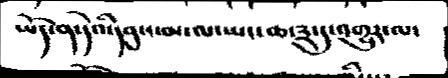ཡོད་ན་དེའི་དབུས་མ་ལ་ཡང་ཆ་༣་དུ་འགྱུར་ལ་
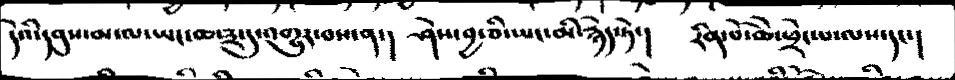དེའི་དབུས་མ་ལ་ཡང་ཆ་༣་དུ་འགྱུར་བས་ན་།  ཤེས་བྱ་ཅི་ཡང་མི་རྙེད་ཏེ་།   རིན་པོ་ཆེ་ཕྲེང་པ་ལས་དང་།
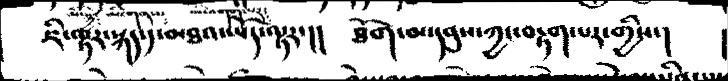ཇི་ལྟར་སྐད་༡་མཐའ་ཡོད་ལྟར་།།  ཐོག་མ་དབུས་ཀྱང་བརྟག་པར་གྱིས་།       །
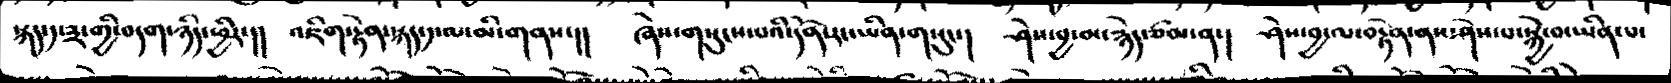སྐད་༡་༣་གྱི་བདག་ཉིད་ཕྱིར་།།  འཇིག་རྟེན་སྐད་༡་ལ་མི་གནས་།།  ཞེས་གསུངས་པའི་དོན་རང་ཡིན་གསུང་།    ཤེས་བྱ་མ་རྙེད་ཙམ་།  ཤེས་བྱ་ལ་བརྟེན་ནས་ཤེས་པ་སྐྱེ་བ་ཡིན་
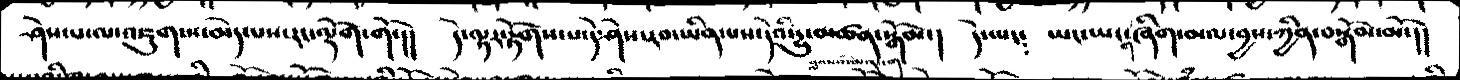ཤེ་པ་ལ་འཇུག་ས་མེད་པས་རང་ལྡོག་གོ་།།  དེ་ལྟར་རྟོགས་པ་དེ་ཤེས་རབ་ཡིན་པས་དེའི་དྱུ་མཚན་སྒོམ་།   དེ་ཡང༴    ཡང་ཡང་ག་ཞིག་མལ་བྱས་ཀྱིན་བསྒོམ་མོ་།།
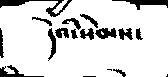དེའི་སེམས་
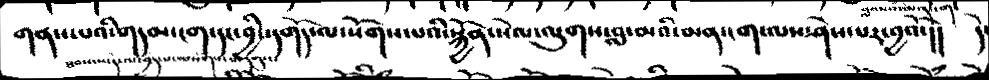གནས་པའི་གདམ་ངག་དང་བྱིང་དགོད་ལ་སོགས་པའི་སྐྱོན་སེལ་ལུགས་བླ་མའི་མན་ངག་ལས་ཤེས་པར་བྱའོ་།།     དེ་
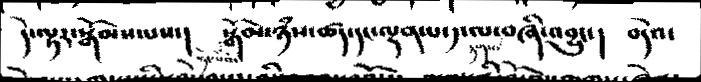དེ་ལྟར་སྒོམས་པས་།    སྒོམ་ཉཾས་ཚད་དང་ལྡན་པ་༡་ལ་བཞི་འབྱུང་།   བདེའ་
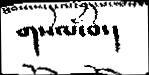གསལ་བ་།
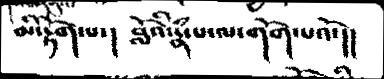མི་རྟོགས་པ་།   བློའི་རྣཾ་པ་ལ་གོག་པའོ་།།
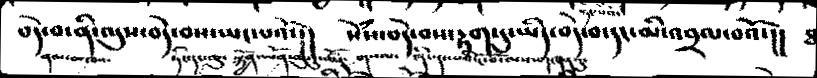བདེ་བ་ནི་ལུས་བདེ་བས་ཡང་པའོ་།།  སེཾས་བདེ་བས་རྟག་དུ་ཡིད་བདེ་བ་དང་མི་འབྲལ་བའོ་།།  ཐ
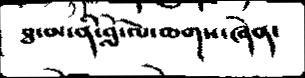ཐ་མ་ནི་བློ་ལ་ཆགས་ཞེན་
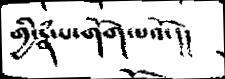གྱི་རྣཾ་པ་གོག་པའོ་།།
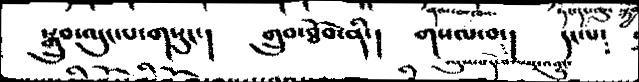སྒྲུབ་ལུང་པ་གསུང་།  གྲུབ་ཐོབ་ནི་།   གསལ་བ་།    དང༴
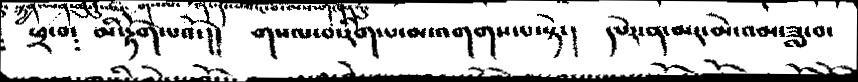ཕྲ་བ༴    མི་རྟོག་པའོ་།།   གསལ་བ་རིག་པ་མ་འགགས་པ་སྟེ་།   དཔེར་ན་མར་མེ་འམ་ཟླ་བ་
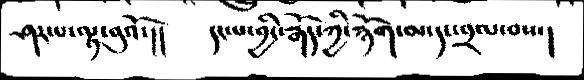ཤར་པ་ལྟ་བུའོ་།།   དང་པ་བྱིང་རྒོད་ཀྱི་རྙོག་མ་དང་བྲལ་བས་།
